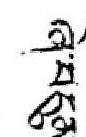ཞེ་བདུན་
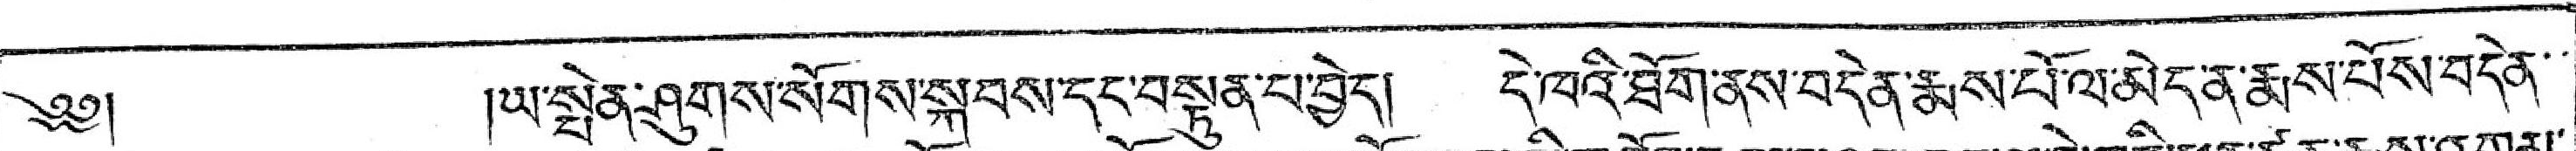༄༅།  །ཡ་སྤེན་ཤུགས་སོགས་སྐབས་དང་བསྟུན་པ་བྱེད། དེ་ཁའི་ཐོག་ནས་བདེན་རྨས་པོ་ལ་མེད་ན་རྨས་པོས་བདེན་་
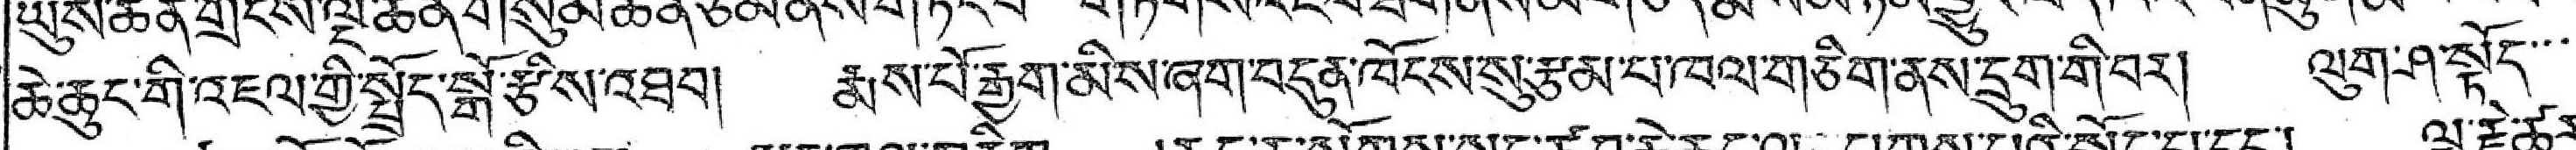ཆེ་ཆུང་གི་འཇལ་གྱི་སྤྲོད་སྒོ་རྩིས་འཐབ། རྨས་པོ་རྒྱག་མིས་ཞག་བདུན་ཁོངས་སུ་རྩམ་པ་ཁལ་གཅིག་ནས་དྲུག་གི་བར། ལུག་ཤ་སྟོད་་་
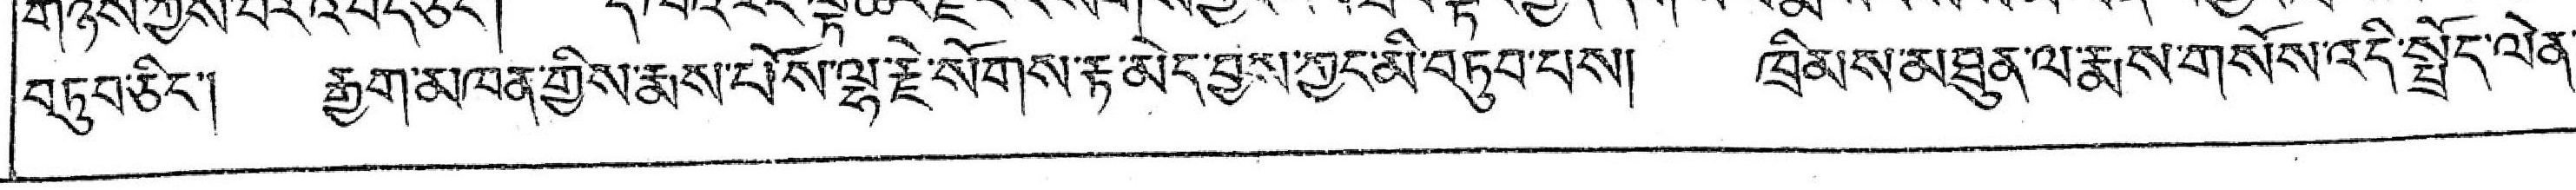བཏུབ་ཅིང་། རྒྱག་མཁན་གྱིས་རྨས་པོས་ལྷ་རྗེ་སོགས་རྟེ་མེད་བྱས་ཀྱང་མི་བཏུབ་པས། ཁྲིམས་མཐུན་ལ་རྨས་གསོས་འདི་སྤྲོད་ལེན་་
